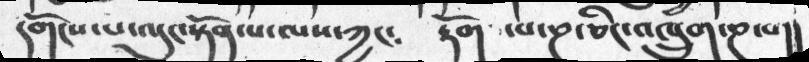དགོངས་པ་ལུང་སྟོན་པ་ལས་ཀྱང༴    རྟོག ་པ་ཎ་ཅིང་འཁྲུག་ཎ་པ།།
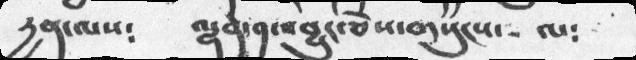དྱན་ལས༴   ལྷན་༡་འབྱུང་ཅེས་གསུངས་  ལ༴
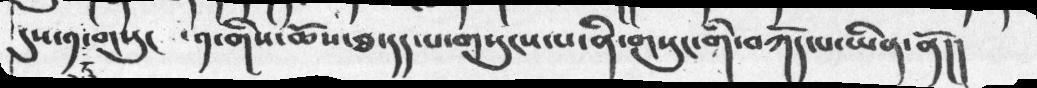དུས་༡་ཏུ་གསུང   ་༡་གིས་ཆོས་ཐ་དད་པ་གསུངས་པ་ནི་གསུང་གི་བཀོད་པ་ཡིན་ནོ།།
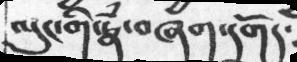ལུང་གི་རྣཾ་བཞག་དགོད༴
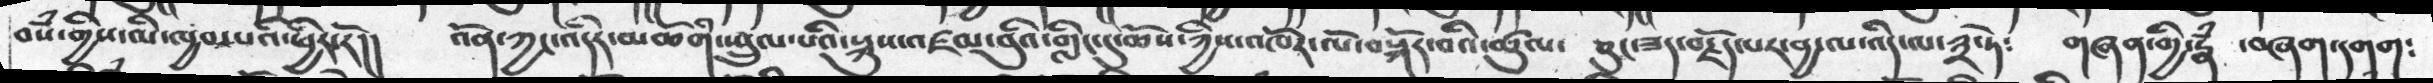བསཾ་གྱིས་མི་ཁྱབ་པའི་ཕྱིར་རོ།།  འོན་ཀྱང་འདིར་མཆོགི་ཕྲུལ་པའི་སྐུས་འཛམ་བུའི་གླིང་དུ་ཆོས་ཀྱིས་འཁོར་ལོ་བསྐོར་བའི་ཚུལ་  ཅུང་ཟད་བརྗོད་པར་བྱ་ལ་འདི་ལ་༣་ཏེ༴  གཞན་གྱི་རྣཾ   ་བཞག་དགག༴
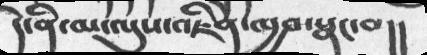དེ་ནི་མ་ལུས་འཇིེན་ཁྱབ་སྣང་བ།།
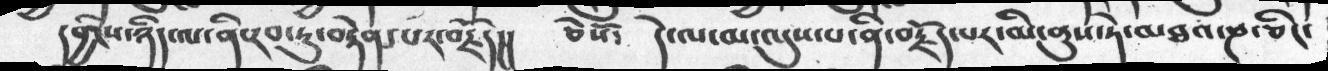དབྱིངས་ཉིད་ལ་ནི་རབ་ཏུ་བརྟེན་པར་བརྗོད།།    ཅེསོ༴   དེ་ལ་མ་ལུས་པ་ནི་བརྗོད་པར་མི་ནུས་ཏེ་མཐའ་ཎ་ཅིང་
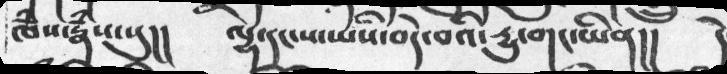ཁཾས་རྣཾས་སུ།།  ལྷ་དང་ས་ཡིས་བདེ་བའི་དྱུ་གང་ཡིན།།  དེ
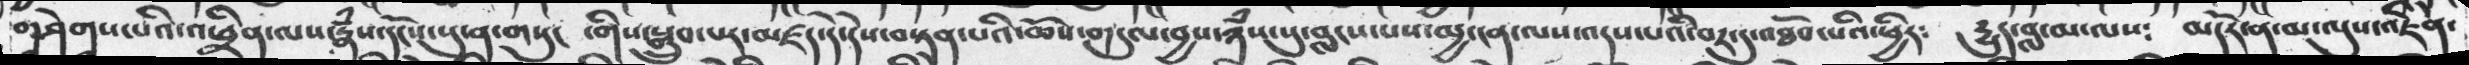གཤེགས་པའི་འཕྲིན་ལས་རྣཾས་དངོས་སུ་ན་གསུང  ་གིས་སྒྲུབ་པར་མཛད་དེ་དེས་བསྟན་པའི་ཆོས་གདུལ་བྱས་ཉཾས་སུ་བླངས་པས་མྱ་ངན་ལས་འདས་པའི་བར་དུ་འཐོབ་པའི་ཕྱིར༴  དྱུད་བླ་མ་ལས༴  མདོར་ན་མ་ལུས་འཇིེན་
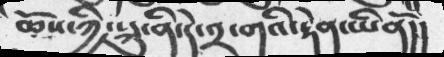ཆོས་ཀྱི་སྐུ་ནི་དེ་༢་གའི་རྟེན་ཡིནོ།།
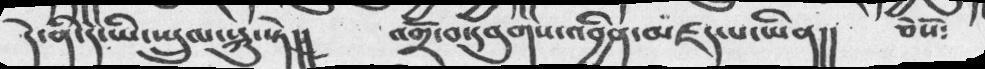དེ་ནི་དེ་ཡི་སྤྲུལ་སྐུ་སྟེ།།       འགྲོ་བ་དབུགས་འབྱིན་མཛད་པ་ཡིན།།  ཅེསོ༴
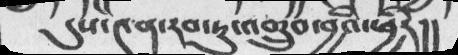དུས་༤ན་རབ་ཏུ་འགྲུབ་བྱའི་ཕྱིར།།
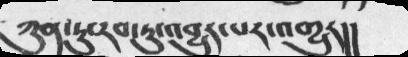ཀུན་ཏུ་རབ་ཏུ་འབྱུང་པར་འགྱུར།།
